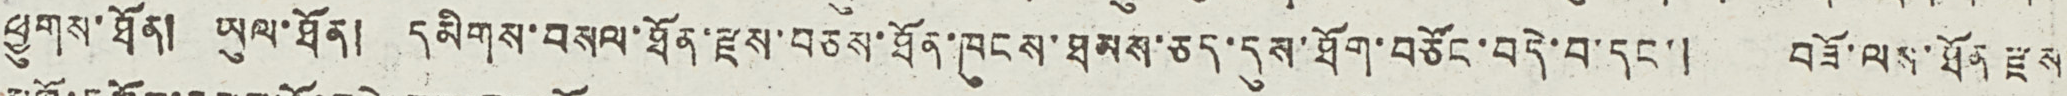ཕྱུགས་ཐོན། ཡུལ་ཐོན། དམིགས་བསལ་ཐོན་རྫས་བཅས་ཐོན་ཁུངས་ཐམས་ཅད་དུས་ཐོག་བཅོང་བདེ་བ་དང་། བཟོ་ལས་ཐོན རྫས་
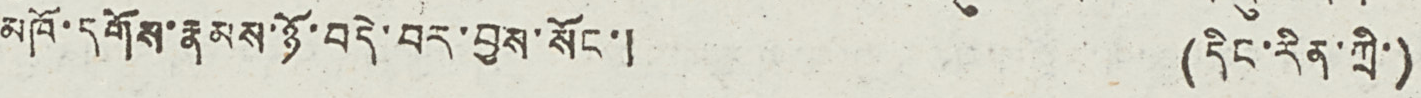མཁོ་དགོས་རྣམས་ཉོ་བདེ་བར་བྱས་སོང་། (དིང་རིན་ཀྲི་)
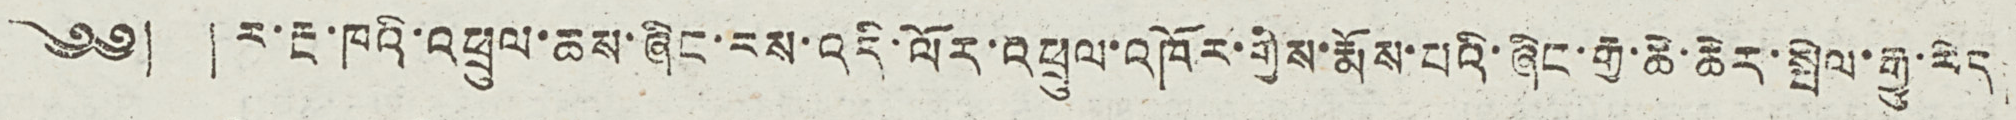༄༅། །ར་རྔ་ཁའི་འཕྲུལ་ཆས་ཞིང་རས་འདི་ལོར་འཕྲུལ་འཁོར་གྱིས་རྨོས་པའི་ཞིང་རྒྱ་ཆེ་ཆེར་སྤེལ་རྒྱུ་རེད།
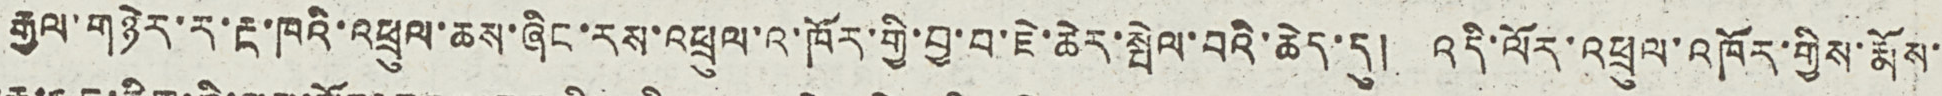རྒྱལ་གཉེར་ར་རྔ་ཁའི་འཕྲུལ་ཆས་ཞིང་རས་འཕྲུལ་འ་ཁོར་གྱི་བྱ་བ་ཇེ་ཆེར་སྤེལ་བའི་ཆེད་དུ། འདི་ལོར་འཕྲུལ་འཁོར་གྱིས་རྨོས་
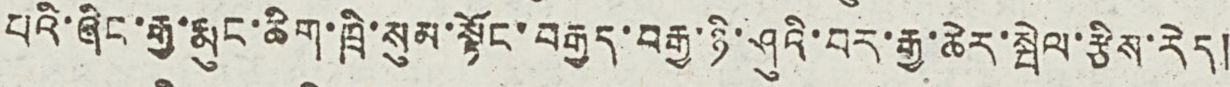པའི་ཞིང་རྒྱ་རྨུང་ཆིག་ཁྲི་སུམ་སྟོང་བརྒྱད་བརྒྱ་ཉི་ཤུའི་བར་རྒྱ་ཆེར་སྤེལ་རྩིས་རེད།
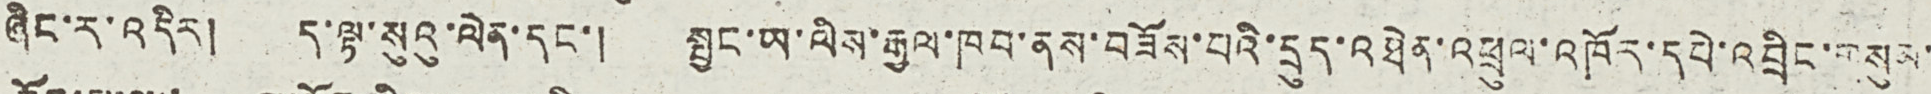ཞིང་ར་འདིར། ད་ལྟ་སུའུ་ལེན་དང་། སྦྱང་ཡ་ལིས་རྒྱལ་ཁབ་ནས་བཟོས་པའི་དྲུད་འཐེན་འཕྲུལ་འཁོར་དཔེ་འབྲིང་གསུམ་
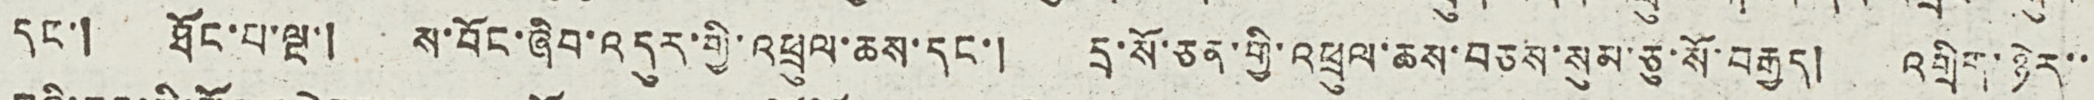དང་། ཐོང་པ་ལྔ་། ས་བོང་ཞིབ་འདུར་གྱི་འཕྲུལ་ཆས་དང་། དྲ་སོ་ཅན་གྱི་འཕྲུལ་ཆས་བཅས་སུམ་ཅུ་སོ་བརྒྱད། འགྲིག་ཉེར་་
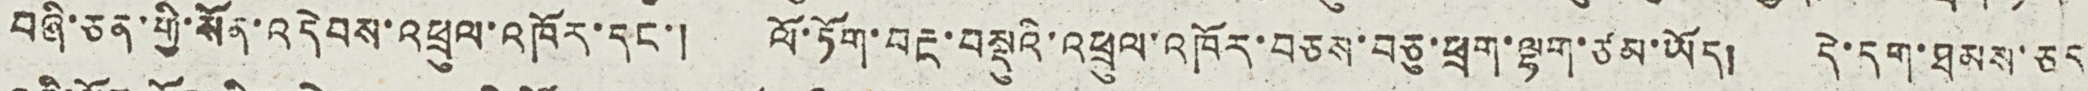བཞི་ཅན་གྱི་སོན་འདེབས་འཕྲུལ་འཁོར་དང་། ལོ་ཏོག་བརྔ་བསྡུའི་འཕྲུལ་འཁོར་བཅས་བཅུ་ཕྲག་ལྷག་ཙམ་ཡོད། དེ་དག་ཐམས་ཅད
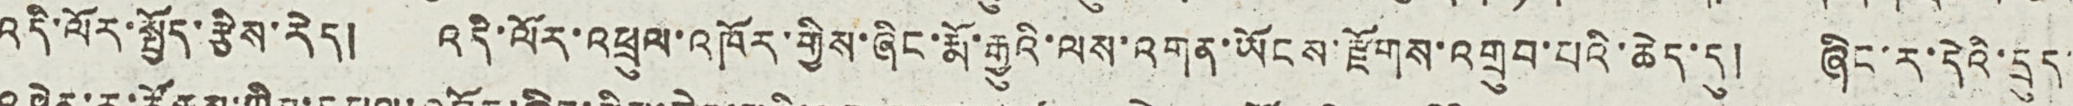འདི་ལོར་སྤྱོད་རྩིས་རེད། འདི་ལོར་འཕྲུལ་འཁོར་གྱིས་ཞིང་རྨོ་རྒྱུའི་ལས་འགན་ཡོངས་རྫོགས་འགྲུབ་པའི་ཆེད་དུ། ཞིང་ར་དེའི་དྲུད་
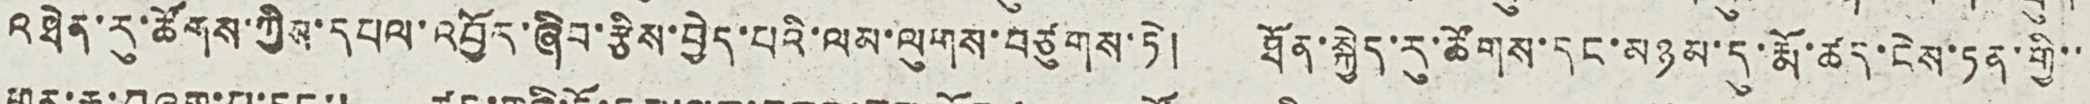འཐེན་རུ་ཚོགས་ཀྱིས་དཔལ་འབྱོར་ཞིབ་རྩིས་བྱེད་པའི་ལམ་ལུགས་བཙུགས་ཏེ། ཐོན་སྐྱེད་རུ་ཚོགས་དང་མཉམ་དུ་རྨོ་ཚད་ངེས་ཏན་གྱི་་
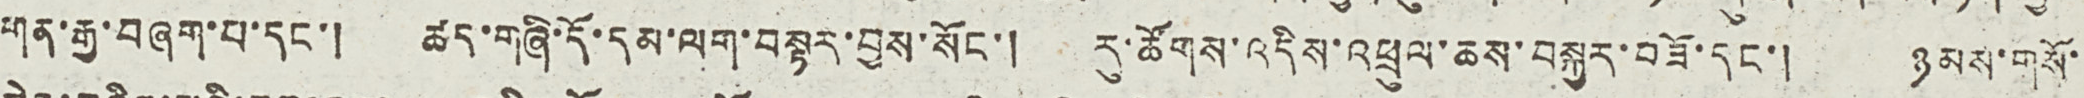གན་རྒྱ་བཞག་པ་དང་། ཚད་གཞི་དོ་དམ་ལག་བསྟར་བྱས་སོང་། རུ་ཚོགས་འདིས་འཕྲུལ་ཆས་བསྐྱར་བཟོ་དང་། ཉམས་གསོ་
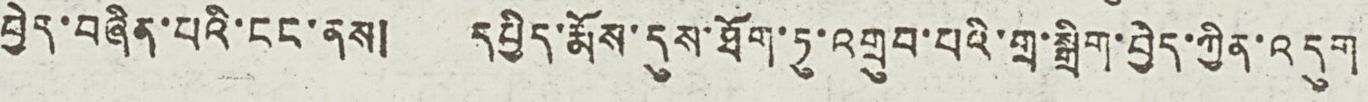བྱེད་བཞིན་པའི་ངང་ནས། དཔྱིད་རྨོས་དུས་ཐོག་ཏུ་འགྲུབ་པའི་གྲ་སྒྲིག་བྱེད་ཀྱིན་འདུག
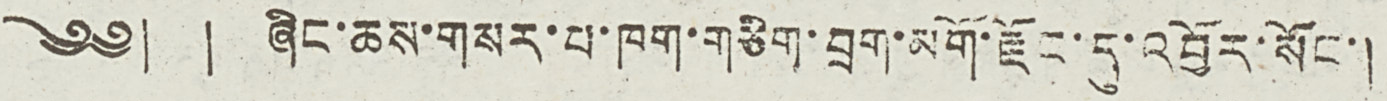༄༅། ། ཞིང་ཆས་གསར་པ་ཁག་གཅིག་བྲག་མགོ་རྫོང་དུ་འབྱོར་སོང་།
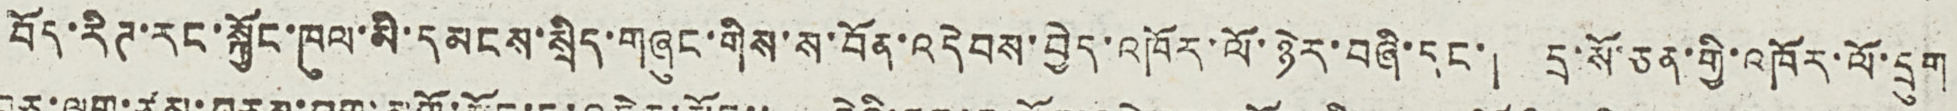བོད་རིཊ་རང་སྐྱོང་ཁུལ་མི་དམངས་སྲིད་གཞུང་གིས་ས་བོན་འདེབས་བྱེད་འཁོར་ལོ་ཉེར་བཞི་དང་། དྲ་སོ་ཅན་གྱི་འཁོར་ལོ་དྲུག
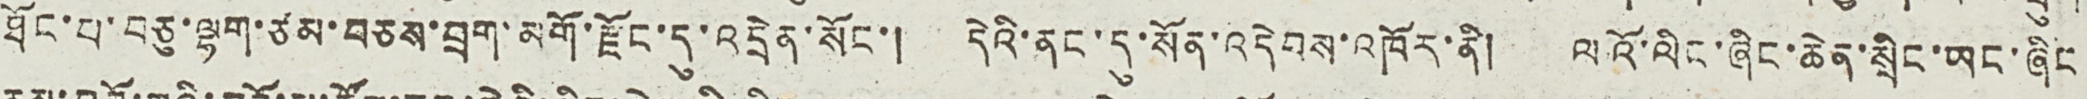ཐོང་པ་བཅུ་ལྷག་ཙམ་བཅས་བྲག་མགོ་རྫོང་དུ་འདྲེན་སོང་། དེའི་ནང་དུ་སོན་འདེབས་འཁོར་ནི། ལའོ་ལིང་ཞིང་ཆེན་སྲིང་ཡང་ཞིང
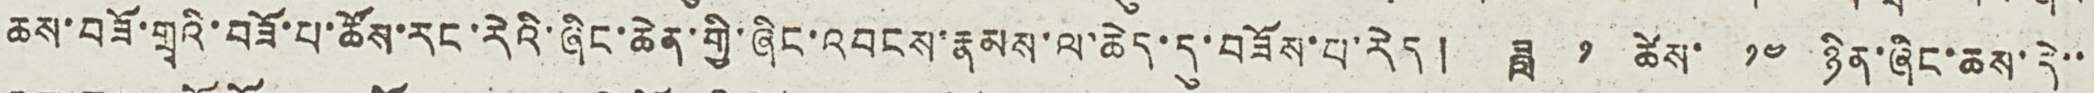ཆས་བཟོ་གྲྭའི་བཟོ་པ་ཚོས་རང་རེའི་ཞིང་ཆེན་གྱི་ཞིང་འབངས་རྣམས་ལ་ཆེད་དུ་བཟོས་པ་རེད། ཟླ ༡ ཚེས་ ༡༤ ཉིན་ཞིང་ཆས་དེ་་
